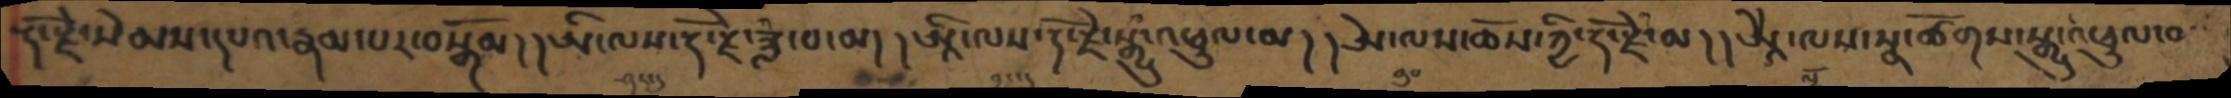རྡོ་རྗེ་སེམས་དཔའ་རྣམ་པར་བསྒོམ། །ཨི་ལས་རྡོ་རྗེ་ཟླ་བ་མ། །ཨཱི་ལས་རྡོ་རྗེ་སྒྱུ་འཕྲུལ་མ། །ཨེ་ལས་ཆོས་ཀྱི་རྡོ་རྗེ་མ། །ཨཱཻ་ལས་སྣ་ཚོགས་སྒྱུ་འཕྲུལ་བ་
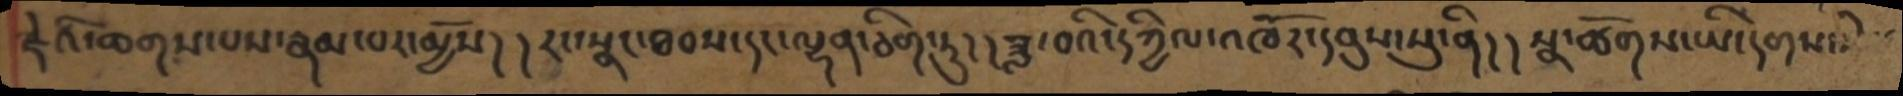རྗེའི་ཆགས་པས་རྣམ་པར་མྱོས། །རང་སྣང་ཐབས་དང་ལྷན་ཅིག་ཏུ། །ཟླ་བའི་དཀྱིལ་འཁོར་དབུས་སུ་ནི། །སྣ་ཚོགས་ཡི་དགས་
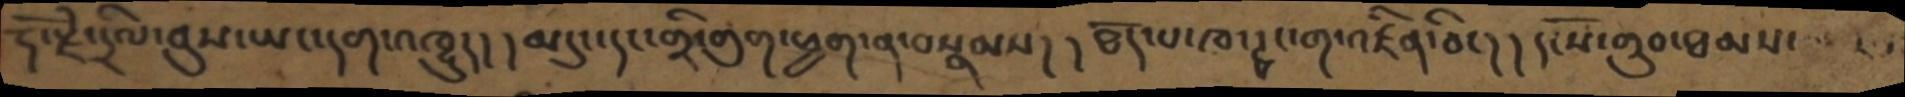རྡོ་རྗེ་དྲིལ་བུས་ཡང་དག་འཁྱུད། །མདུང་དང་གྲི་གུག་ཕྱག་ན་བསྣམས། །ཐོད་པ་ཁ་ཊྭང་ག་འཛིན་ཅིང། །དངོས་གྲུབ་ཐམས་
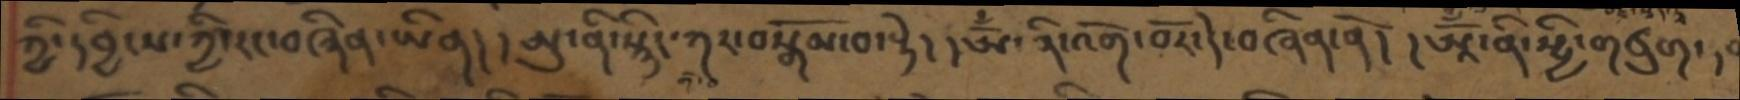ཀྱི་དབྱིངས་ཀྱི་རང་བཞིན་ཡིན། །ཨུ་ནི་སྙིང་ཀར་བསྒོམ་བ་སྟེ། །ཨོྃ་ནི་འགོ་བོར་དེ་བཞིན་ནོ། །ཨཱོྃ་ནི་སྤྱི་གཙུག་དང་
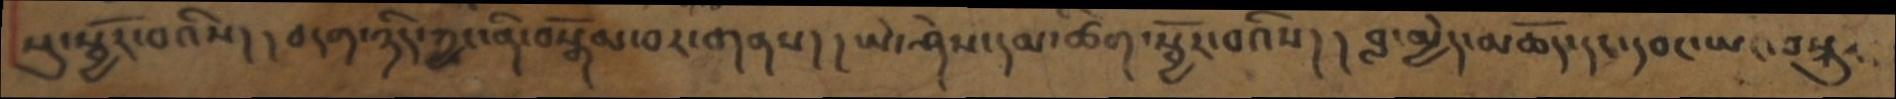སུ་སྦྱོར་བའིས། །བདག་ཉིད་ཀྱང་ནི་བསྒོམ་བར་གནས། །ཡེ་ཤེས་དམ་ཚིག་སྦྱོར་བའིས། །བླ་མྱེད་མཆོད་དང་དབང་ཡང་བསྐུར
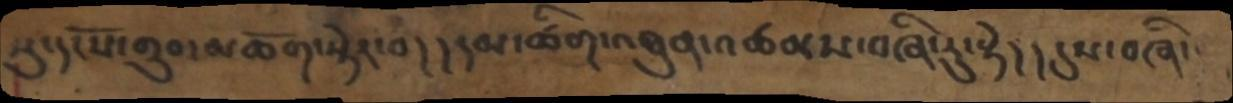སུ་དངོས་གྲུབ་མཆོག་སྟེར་བ། །དམ་ཚིག་འཐུན་འཚམས་བཞི་རུ་སྟེ། །དུས་བཞི་
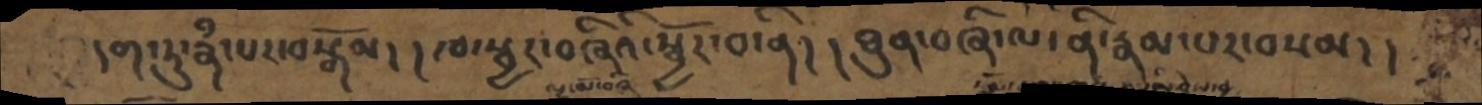དག་ཏུ་རྣཾ་པར་བསྒོམ། །ཁ་སྦྱར་བཞིའི་སྦྱོར་བ་ནི། །ཐུན་བཞི་ལ་ནི་རྣམ་པར་བསམ། །
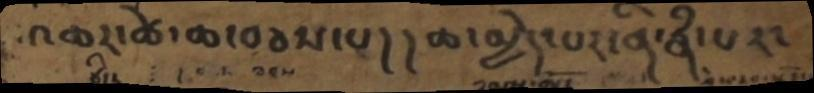འཆར་ཚེ་ཆ་བཅས་པ། །ཆ་མྱེད་པར་ནི་རྣཾ་པར་
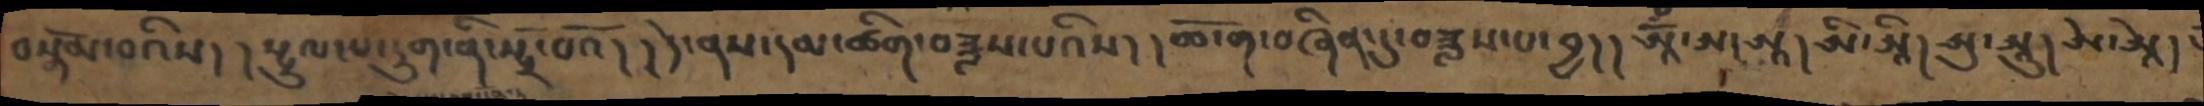བསྒོམ་བའིས། །སྤྲུལ་པ་དྲུག་ནི་སྤྲོ་བའོ། །དེ་ནས་དམ་ཚིག་བཟླས་པའིས། །ཆོ་ག་བཞིན་དུ་བཟླས་པ་བྱ། །ཨཱོྃ་ཨ་ཨཱ། ཨི་ཨཱི། ཨུ་ཨཱུ། ཨེ་ཨཱེ།
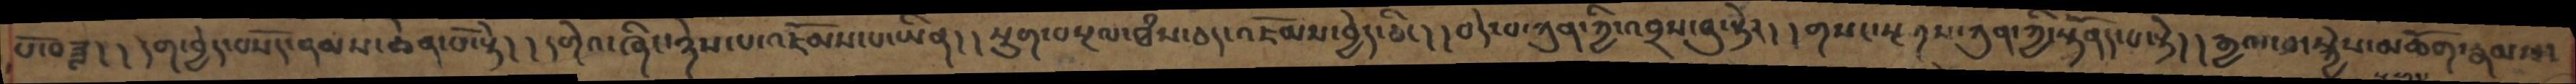པོ་བཟླ། །དག་བྱེད་བསོད་ནམས་ཆེན་པོ་སྟེ། །དགེའ་ཞིང་ཉེས་པ་འཇོམས་པ་ཡིན། །སྡུག་བསྔལ་ཐཾས་ཅད་འཇོམས་བྱེད་ཅིང། །བདེ་བ་ཀུན་ཀྱི་འབྲས་བུ་སྟེར། །གསང་སྔགས་ཀུན་ཀྱི་སྟོནད་པ་སྟེ། །རྒྱལ་བ་སྐྱེས་མཆོག་རྣམས
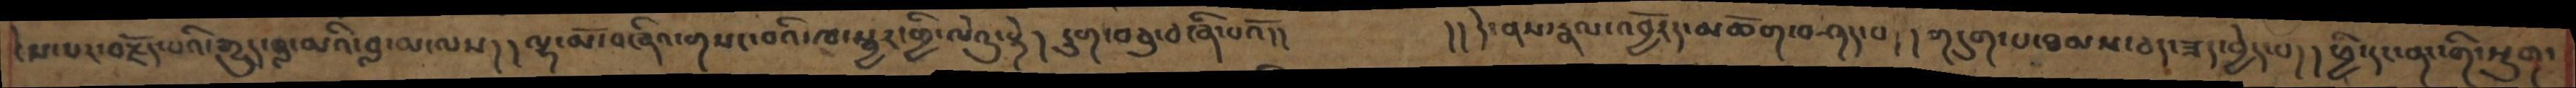ངེས་པར་བརྗོད་པའི་རྒྱུད་བླ་མའི་བླ་མ་ལས། །ལྷ་མོ་གཞིའ་གསང་བའི་ཁ་སྦྱར་གྱི་ལེའུ་སྟེ། དྲུག་བཅུ་བཞི་པའོ།།     །།དེ་ནས་རྣལ་འབྱོརད་མཆོག་བཤད་པ།།གདུག་པ་ཐམས་ཅད་ཟད་བྱེད་པ།།ཕྱི་དང་ནང་གི་སྡུག་
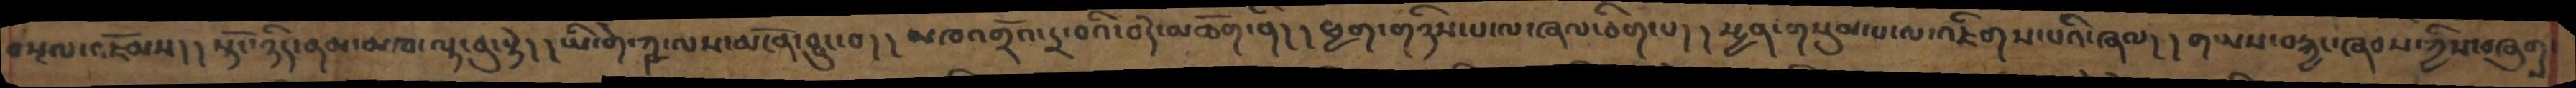བསྔལ་འཇོམས།།སྟོང་ཉིད་ནམ་མཁ་ལྟ་བུ་སྟེ།།ཡི་གེ་ཀྵ་ལས་མངོན་བྱུང་བ།།མཁའགྲོ་དྲ་བའི་བདེ་མཆོག་ནི།།ཕྱག་གཉིས་པ་ལ་ཞལ་ཅིག་པ།།སྤྱན་གསུམ་པ་ལ་འཇིགས་པའི་ཞལ།།གཡས་བརྐྱང་ཞབས་ཀྱིས་བཞུགས་
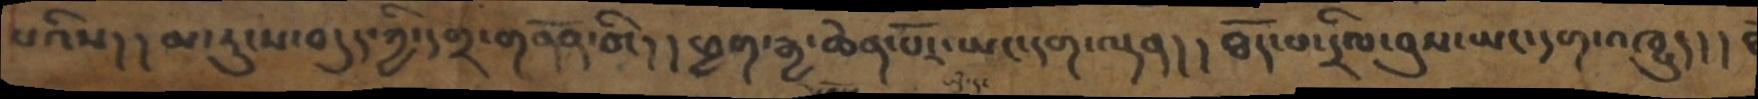པའིས། །མ་རུངས་བདུད་ཀྱི་དགྲ་གནོན་ཅིང། །ཕྱག་རྒྱ་ཆེན་པོར་ཡང་དག་ལྡན། །ཐོད་པ་དྲིལ་བུས་ཡང་དག་འཁྱུད། །
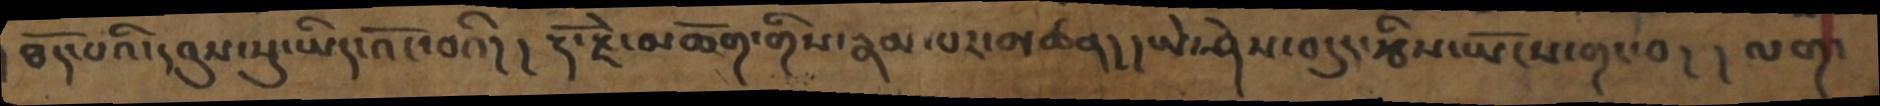ཐོད་པའི་དབུས་སུ་ཡིད་འོང་བའི།། རྡོ་རྗེ་མཆོག་གིས་རྣམ་པར་མཚན།།ཡེ་ཤེས་བདུད་རྩིས་ཡོངས་གང་བ། །ལག་
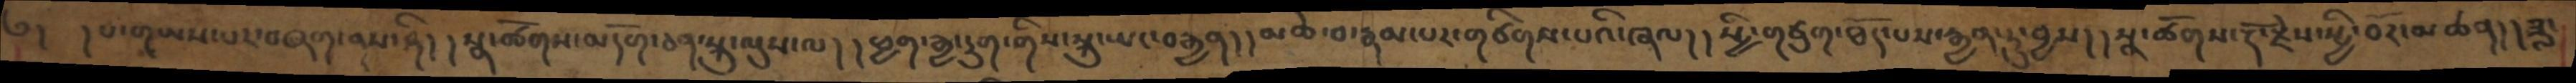༄། །པ་གཡས་པར་བཞག་ནས་ནི། །སྣ་ཚོགས་མདོག་ཅན་སྐུ་ལུས་ལ། །ཕྱག་རྒྱ་དྲུག་གིས་སྐུ་ཡང་བརྒྱན། །མཆེ་བ་རྣམ་པར་གཙིགས་པའི་ཞལ། །སྤྱི་གཙུག་ཐོད་པས་རྒྱན་ཏུ་བྱས། །སྣ་ཚོགས་རྡོ་རྗེས་སྤྱི་བོར་མཚན། །ཟླ་
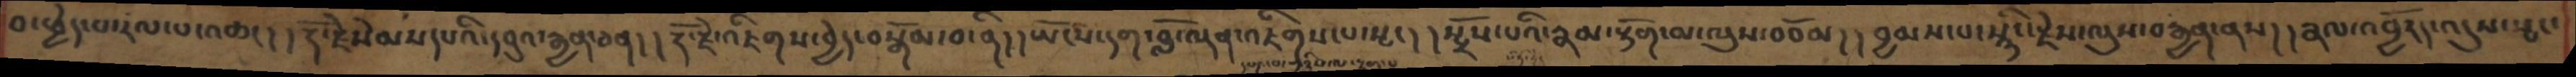བ་ཕྱེད་པ་རལ་པ་འཆང། །རྡོ་རྗེ་སེམས་དཔའི་དབུའ་རྒྱན་ཅན། །རྡོ་རྗེ་འཇིགས་བྱེད་བསྒོམ་བ་ནི། །ཡོངས་དག་བློ་ལྡན་འཇིགས་པ་སྤང། །སྤྲོས་པའི་རྣམ་རྟོག་མ་ལུས་བཅོམ། །བྱམས་པ་སྙིང་རྗེས་ལུས་བརྒྱན་ནས། །རྣལ་འབྱོརད་འདུས་སྤང་
